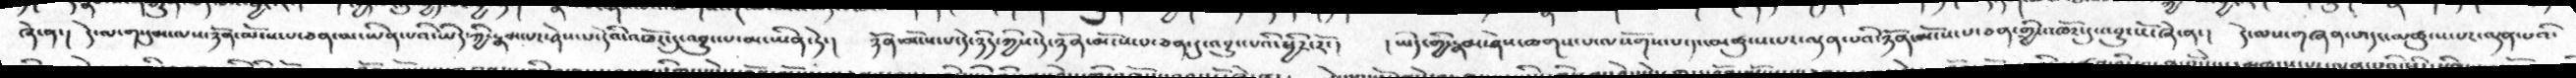ཞེ་ན་།  དེ་ལ་གསུམ་ལས་ཉོན་མོངས་པ་ཅན་མ་ཡིན་པའི་ཡིད་ཀྱི་རྣམ་པར་ཤེས་པ་དེའི་འཁོར་དུ་འབྱུང་པ་མ་ཡིན་ཏེ་།  ཉོན་མོངས་པ་དེ་ཉིད་ཀྱིས་དེ་ཉོན་མོངས་པ་ཅན་དུ་འབྱུང་པའི་ཕྱིར་རོ་།  །ཡིད་གྱི་རྣམ་ཤེས་ཆགས་པ་ལསོགས་པ་དང་མཚུངས་པར་ལྡན་པའི་ཉོན་མོངས་པ་ཅན་གྱི་འཁོར་དུ་འབྱུང་ངོ་ཞེ་ན་།  དེ་ལས་གཞན་པ་དང་མཚུངས་པར་ལྡན་པའི་
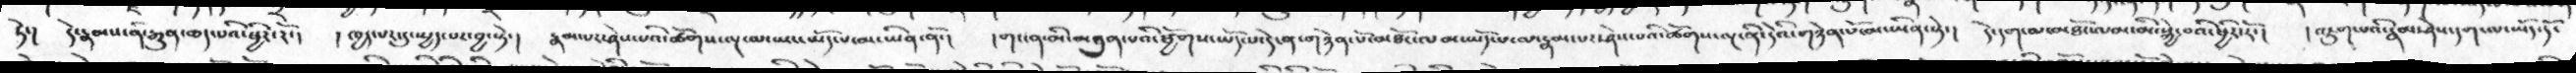ཏེ་།   དེ་རྣམས་ནི་རྒྱུན་ཆད་པའི་ཕྱིར་རོ་།   ། ཁྱད་པར་དུ་སྤྱད་པར་བྱ་སྟེ་།  རྣམ་པར་ཤེས་པའི་ཚོགས་ལྔ་ལ་ཡང་ཡོད་པ་མ་ཡིན་ནོ་།  དགང་ན་མི་མཐུན་པའི་ཕྱོགས་ཡོད་པ་དེ་ན་གཉེན་པོ་མཐོང་ལམ་ཡོད་པ་ལ་རྣམ་པར་ཤེས་པའི་ཚོགས་ལྔ་ནི་དེའི་གཉེན་པོ་མ་ཡིན་སྟེ་།  དེ་དག་ལ་མཐོང་ལམ་མི་སྐྱེ་བའི་ཕྱིར་རོ་།  ། འཇུག་པའི་རྣམ་ཤེས་དག་ལ་ཡོད་དོ་
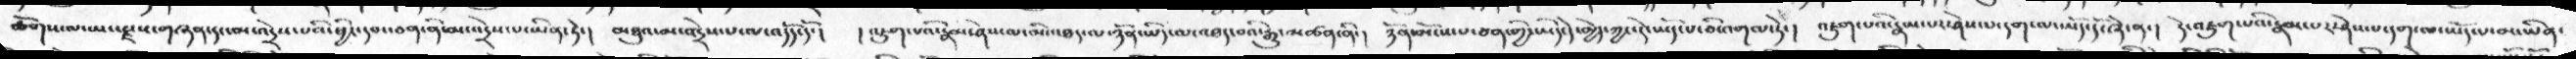ཚོགས་ལ་ཡང་རྫས་གཞན་དང་མ་འདྲེས་པའི་ཕྱིར་དབང་ཅན་ནི་མ་འདྲེས་པ་ཡིན་ཏེ་།  མཐུའ་མ་འདྲེས་པ་ལ་འདོད་དོ་།   ། འཇུག་པའི་རྣམ་ཤེས་ལ་མི་འཐད་ལ་ཉོན་ཡིད་ལ་འཐད་བའི་རྒྱུ་མཚན་ནི་།   ཉོན་མོངས་པ་ཅན་གྱི་ཡོད་དེ་མྱེད་ཀྱང་དེ་ཡོད་པ་ཅིས་འགལ་ཏེ་།  འཇུག་པའི་རྣམ་པར་ཤེས་པ་དག་ལ་ཡོད་དོ་ཞེ་ན་།  དེ་འཇུག་པའི་རྣམ་པར་ཤེས་པ་དག་ལ་ཡོད་པ་མ་ཡིན་
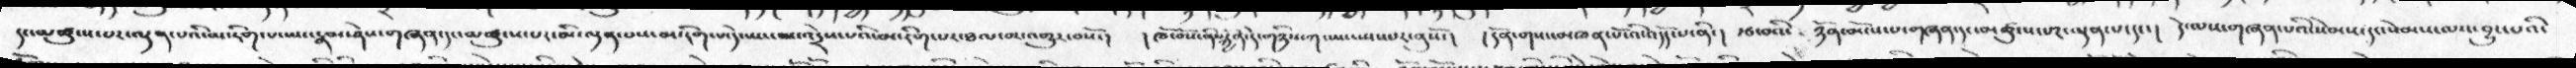དང་མཚུངས་པར་ལྡན་པའི་མ་རིག་པ་ཡང་རྣམ་ཤེས་གཞན་དང་མཚུངས་པར་མི་ལྡན་པས་མ་རིག་པ་དེ་ཡང་མ་འདྲེས་པའི་མ་རིག་པར་ཐལ་བར་འགྱུར་བསོ་།  །ཁོ་བོས་ནི་སྐྱེན་དེ་གཉིས་ཀ་ཡང་ཡང་པར་ནུསོ་།  །དོན་གསང་མཁན་པོ་འི་འདོད་པ་ནི་།  རྩ་བའི་  ཉོན་མོངས་པ་གཞན་དང་མཚུངས་པར་ལྡན་པ་དང་།  དེ་ལས་གཞན་པའི་སེམས་དང་སེམས་ལས་བྱུང་པའི་
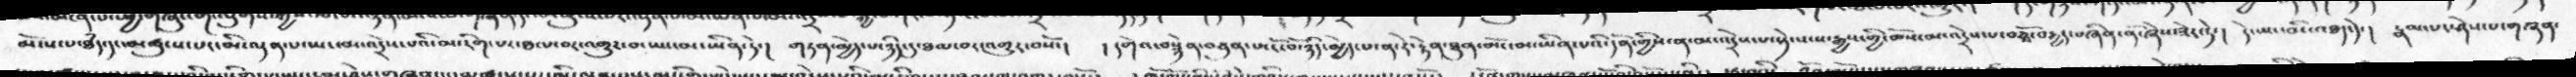མོངས་པ་ཐཾད་དང་མཚུངས་པར་མི་ལྡན་པ་ཡང་མ་འདྲེས་པའི་མ་རིག་པར་ཐལ་བར་འགྱུར་བ་ཡང་མ་ཡིན་ཏེ་།  གཏན་མྱེད་པ་ཉིད་དུ་ཐལ་བར་འགྱུར་བསོ་།  །དགེའ་བསྙེན་བཙུན་པ་ངོ་བོ་ཉིད་མྱེད་པ་ན་རེ་རྟེན་ཐུན་མོང་མ་ཡིན་པའི་དོན་གྱིས་ན་མ་འདྲེས་པ་སྟེ་སངས་རྒྱས་གྱི་ཆོས་མ་འདྲེས་པ་བཅྭོ་བརྒྱད་བཞིན་ནོ་ཞེས་ཟེར་ཏེ་།   དེ་ཡང་མི་འཐད་ཏེ་།  རྣམ་པར་ཤེས་པ་གཞན་
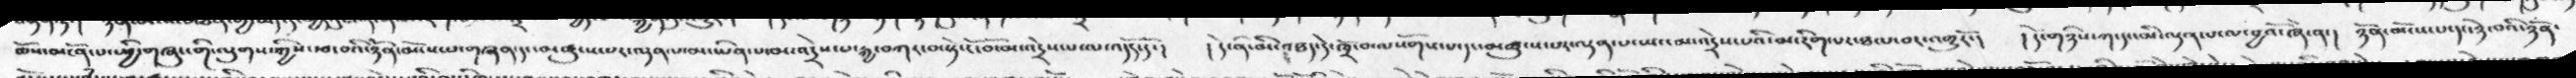ཆོས་མངོན་པ་སྤྱི་གཞུང་གི་ལུགས་ཀྱིས་རྩ་བའི་ཉོན་མོངས་པ་གཞན་དང་མཚུངས་པར་ལྡན་པ་མ་ཡིན་པ་མ་འདྲེས་པ་རྒྱ་བཀར་བ་སྟེ་ངོ་བོ་མ་འདྲེས་པ་ལ་འདོད་དོ་།  །དེ་ནི་མི་འཐད་དེ་ཁྲོ་བ་ལསོགས་པ་དང་མཚུངས་པར་ལྡན་པ་ཡང་མ་འདྲེས་པའི་མ་རིག་པར་ཐལ་བར་འགྱུརོ་།  །དེ་གཉིས་ཀ་དང་མི་ལྡན་པ་ལ་བྱའོ་ཞེ་ན་།   ཉོན་མོངས་པ་དང་ཉེ་བའི་ཉོན་
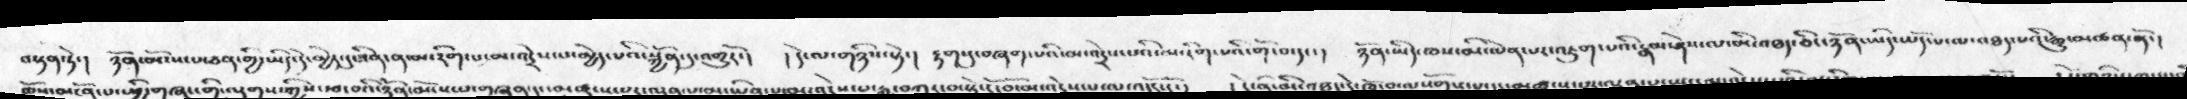བསྟན་ཏེ་།  ཉོན་མོངས་པ་ཅན་གྱི་ཡིད་དེ་མྱེད་དུ་ཟིན་ན་མ་རིག་པ་མ་འདྲེས་པ་མྱེད་པའི་སྐྱོན་དུ་འགྱུརོ་།  །དེ་ལ་གཉིས་སྟེ་།  རྟག་དུ་བཞག་པའི་མ་འདྲེས་པའི་མ་རིག་པའི་གོ་བ་དང་།  ཉོན་ཡིད་ཁས་མི་ལེན་པར་འཇུག་པའི་རྣམ་ཤེས་ལ་མི་འཐད་ཅིང་ཉོན་ཡིད་ཡོད་པ་ལ་འཐད་པའི་རྒྱུ་མཚན་ནོ་།
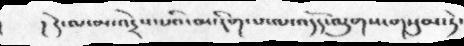། དེ་ལ་མ་འདྲེས་པའི་མ་རིག་པ་ལ་འདོད་ལུགས་གསུམ་ཏེ་
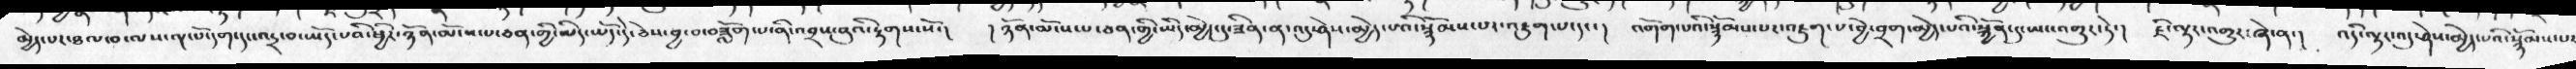མྱེད་པར་ཐལ་བ་ལས་ལྔ་པོ་དག་དང་འདྲ་བ་ཡོད་པའི་ཕྱིར་ཉོན་མོངས་པ་ཅན་གྱི་ཡིད་ཡོད་དེ་ཅེས་བྱ་བ་བཟློག་པ་ནི་འབྲས་བུའི་རྟགས་སོ་།  །ཉོན་མོངས་པ་ཅན་གྱི་ཡིད་མྱེད་དུ་ཟིན་ན་འདུ་ཤེས་མྱེད་པའི་སྙོམས་པར་འཇུག་པ་དང་།  འགོག་པའི་སྙོམས་པར་འཇུག་པ་བྱེ་བྲག་མྱེད་པའི་སྐྱོན་དུ་ཡང་འགྱུར་ཏེ་།  ཇི་ལྟར་འགྱུར་ཞེ་ན་།  འདི་ལྟར་འདུ་ཤེས་མྱེད་པའི་སྙོམས་པ་
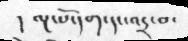།  ལྔ་པོ་དག་དང་འདྲ་བ་
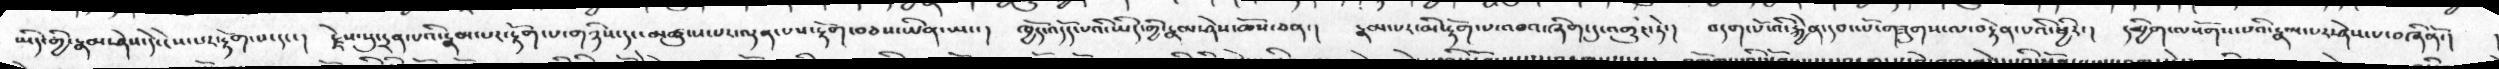ཡིད་གྱི་རྣམ་ཤེས་དེ་ངེས་པར་རྟོག་པ་དང་།  རྗེས་སུ་དྲན་པའི་རྣམ་པར་རྟོག་པ་གཉིས་དང་མཚུངས་པར་ལྡན་པས་རྟོག་བཅས་ཡིན་ཡང་།  ཁྱོད་འདོད་པའི་ཡིད་གྱི་རྣམ་ཤེས་ཆོས་ཅན་།  རྣམ་པར་མི་རྟོག་་པ་འབའ་ཞིག་དུ་འགྱུར་ཏེ་།   བདག་པོ་འི་རྐྱེན་དབང་པོ་གཟུགས་ལ་བརྟེན་པའི་ཕྱིར་།  དམྱིག་ལསོགས་པའི་རྣམ་པར་ཤེས་པ་བཞིནོ་།
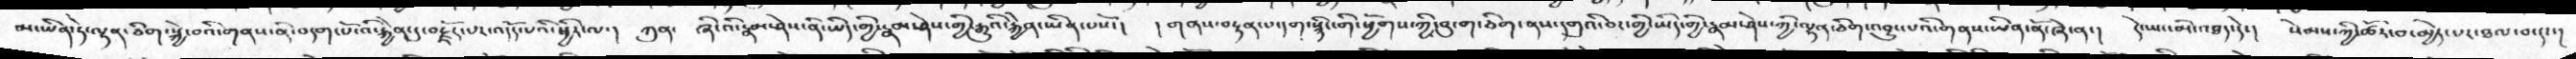མ་ཡིན་ཏེ་ལྷན་ཅིག་སྐྱེ་བའི་གནས་ནི་བདག་པོ་འི་རྐྱེན་དུ་བརྗོད་པར་འདོད་པའི་ཕྱིར་ལ་།  ཀུན་  ཞི་འི་རྣམ་ཤེས་ནི་ཡིད་གྱི་རྣམ་ཤེས་གྱི་རྒྱུའི་རྐྱེན་ཡིན་པསོ་།   །གནས་བརྟན་པ་དག་སྙིང་གི་ཕྱོགས་ཀྱི་བུ་་ག་ཅིག་ནས་དགུའི་བར་གྱི་ཡིད་གྱི་རྣམ་ཤེས་ཀྱི་ལྷན་ཅིག་འབྱུང་པའི་གནས་ཡིན་ནོ་ཞེ་ན་།   དེ་ཡང་མི་འཐད་དེ་།   སེམས་ཀྱི་ཚོར་བ་མྱེད་པར་ཐལ་བ་དང་།
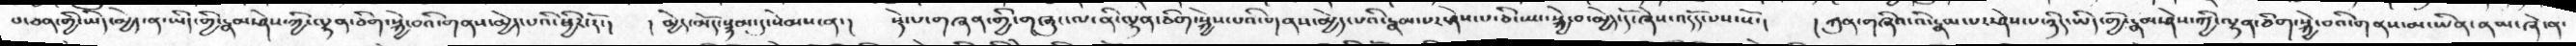པ་ཅན་གྱི་ཡིད་མྱེད་ན་ཡིད་གྱི་རྣམ་ཤེས་ཀྱི་ལྷན་ཅིག་སྐྱེ་བའི་གནས་མྱེད་པའི་ཕྱིར་རོ་།  ། མྱེད་མོད་སྙམ་དུ་སེམས་ན་།  སྡེ་པ་གཞན་གྱི་གཞུང་ལ་ནི་ལྷན་ཅིག་སྐྱེས་པའི་གནས་མྱེད་པའི་རྣམ་པར་ཤེས་པ་ཅི་ཡང་སྐྱེ་བ་མྱེད་དོ་ཞེས་འདོད་པས་སོ་།  ། ཀུན་གཞིའ་འི་རྣམ་པར་ཤེས་པ་ཉིད་ཡིད་གྱི་རྣམ་ཤེས་ཀྱི་ལྷན་ཅིག་སྐྱེ་བའི་གནས་མ་ཡིན་ནམ་ཞེ་ན་
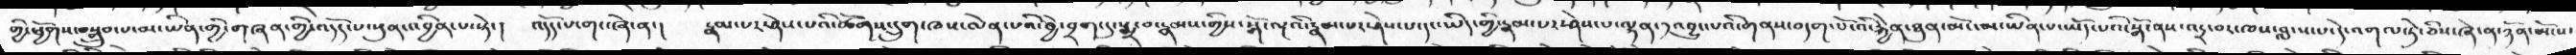གྱི་ཕྱོགས་བསྒྲུབ་པ་མ་ཡིན་གྱི་གཞན་གྱི་འདོད་པ་སུན་འབྱིན་པ་སྟེ་།  འདོད་པ་གང་ཞེ་ན་།  རྣམ་པར་ཤེས་པའི་ཚོགས་དྲུག་ཁས་ལེན་པའི་བྱེ་བྲག་དུ་སྨྲ་བ་རྣམས་གྱིས་སྒོ་ལྔའི་རྣམ་པར་ཤེས་པ་དང་ཡིད་གྱི་རྣམ་པར་ཤེས་པ་ལྷན་༡འབྱུང་པའི་གནས་བདག་པོ་འི་རྐྱེན་ཐུན་མོང་མ་ཡིན་པ་ཡོད་པའི་སྒོ་ནས་འདྲ་བར་ཁས་བླངས་པ་དེ་འགལ་ཏེ་ཅིས་ཞེ་ན་ཉོན་མོངས་
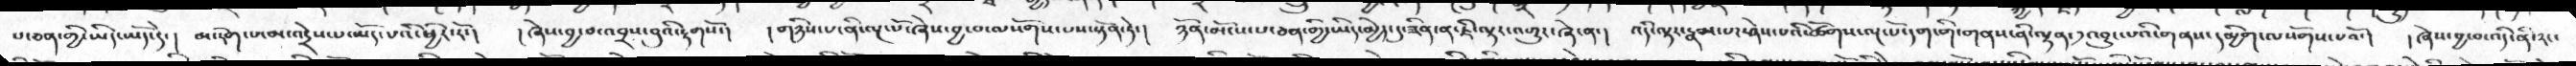པ་ཅན་གྱི་ཡིད་ཡོད་དེ་།  མ་རེག་པ་མ་འདྲེས་པ་ཡོད་པའི་ཕྱིར་རོ་།  །ཞེས་བྱ་བ་འབྲས་བུའི་རྟགསོ་།  །གཉིས་པ་ནི་ལྔ་པོ་ཞེས་བྱ་བ་ལ་སོགས་པས་སྟོན་ཏེ་།  ཉོན་མོངས་པ་ཅན་གྱི་ཡིད་མྱེད་དུ་ཟིན་ན་ཇི་ལྟར་འགྱུར་ཞེ་ན་།  འདི་ལྟར་རྣམ་པར་ཤེས་པའི་ཚོགས་ལྔ་པོ་དག་གི་གནས་ནི་ལྷན་༡འབྱུང་པའི་གནས་དམྱིག་ལསོགས་པའོ་།  །ཞེསབྱ་བ་འདི་ནི་རང་
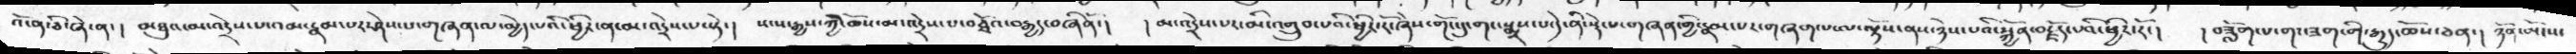འོ་ན་ཅི་ཞེ་ན་།  མཐུའ་མ་འདྲེས་པ་འམ་རྣམ་པར་ཤེས་པ་གཞན་ལ་མྱེད་པའི་ཕྱིར་ན་མ་འདྲེས་པ་སྟེ་།  སངས་རྒྱས་ཀྱི་ཆོས་མ་འདྲེས་པ་བཅྭོའ་བརྒྱད་བཞིནོ་།  །མ་འདྲེས་པར་མི་འགྲུབ་པའི་ཕྱིར་རོ་ཞེས་གོང་དུ་གང་སྨྲས་པ་དེ་ནི་སྡེ་པ་གཞན་གྱི་རྣམ་པར་གཞན་པ་ལ་ལྟོས་ནས་ཉེས་པའི་སྐྱོན་བརྗོད་པའི་ཕྱིར་རོ་།  །བཟློག་པ་གང་ཟག་གི་རྒྱུད་ཆོས་ཅན་།  ཉོན་མོངས་
